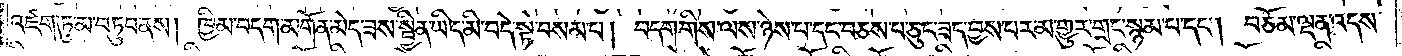འཛག་ཏུ་མ་བཏུབ་ནས། ཁྱིམ་བདག་མགོན་མེད་ཟས་སྦྱིན་ཡིད་མི་བདེ་སྟེ་བསམ་པ། བདག་གིས་ལས་ཉེས་པ་དང་བཅས་པ་ཅུང་ཟད་བྱས་པར་མ་གྱུར་གྲང་སྙམ་པ་དང༌། བཅོམ་ལྡན་འདས་
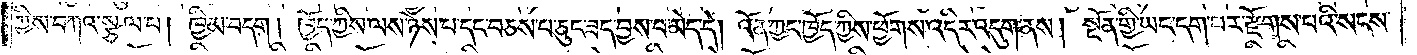ཀྱིས་བཀའ་སྩལ་པ། ཁྱིམ་བདག །ཁྱོད་ཀྱིས་ལས་ཉེས་པ་དང་བཅས་པ་ཅུང་ཟད་བྱས་པ་མེད་དེ། འོན་ཀྱང་ཁྱོད་ཀྱིས་ཕྱོགས་འདིར་འདུག་ནས། སྔོན་གྱི་ཡང་དག་པར་རྫོགས་པའི་སངས་
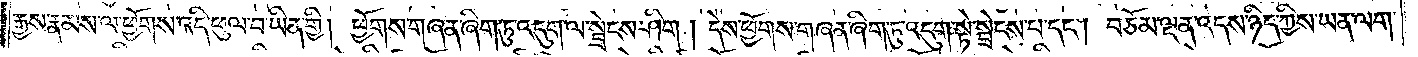རྒྱས་རྣམས་ལ་ཕྱོགས་འདི་ཕུལ་བ་ཡིན་གྱི། ཕྱོགས་གཞན་ཞིག་ཏུ་འདུག་ལ་སྦྲེངས་ཤིག །དེས་ཕྱོགས་གཞན་ཞིག་ཏུ་འདུག་སྟེ་སྦྲེངས་པ་དང༌། བཅོམ་ལྡན་འདས་ཉིད་ཀྱིས་ཡན་ལག་
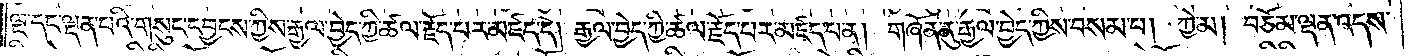ལྔ་དང་ལྡན་པའི་གསུང་དབྱངས་ཀྱིས་རྒྱལ་བྱེད་ཀྱི་ཚལ་རྗོད་པར་མཛད་དེ། རྒྱལ་བྱེད་ཀྱི་ཚལ་རྗོད་པར་མཛད་པ་ན། གཞོན་ནུ་རྒྱལ་བྱེད་ཀྱིས་བསམ་པ། ཀྱེ་མ། བཅོམ་ལྡན་འདས་
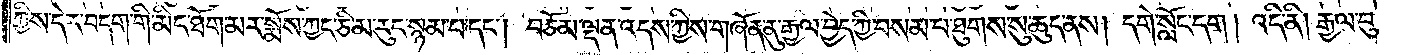ཀྱིས་དེར་བདག་གི་མིང་ཐོག་མར་སྨོས་ཀྱང་ཅི་མ་རུང་སྙམ་པ་དང༌། བཅོམ་ལྡན་འདས་ཀྱིས་གཞོན་ནུ་རྒྱལ་བྱེད་ཀྱི་བསམ་པ་ཐུགས་སུ་ཆུད་ནས། དགེ་སློང་དག །འདི་ནི། རྒྱལ་བུ་
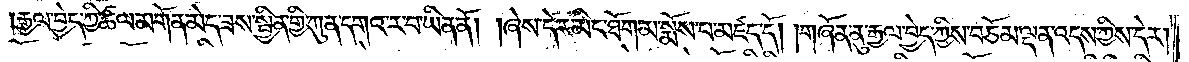རྒྱལ་བྱེད་ཀྱི་ཚལ་མགོན་མེད་ཟས་སྦྱིན་གྱི་ཀུན་དགའ་ར་བ་ཡིན་ནོ། །ཞེས་དེར་མིང་ཐོག་མ་སྨོས་པ་མཛད་དོ། །གཞོན་ནུ་རྒྱལ་བྱེད་ཀྱིས་བཅོམ་ལྡན་འདས་ཀྱིས་དེར།
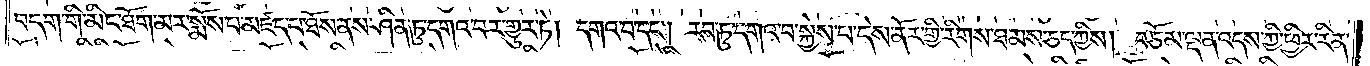བདག་གི་མིང་ཐོག་མར་སྨོས་པ་མཛད་པ་ཐོས་ནས་ཤིན་ཏུ་དགའ་བར་གྱུར་ཏེ། དགའ་བ་དང༌། རབ་ཏུ་དགའ་བ་སྐྱེས་པ་དེས་ནོར་གྱི་རིགས་ཐམས་ཅད་ཀྱིས། བཅོམ་ལྡན་འདས་ཀྱི་ཕྱིར་རིན་
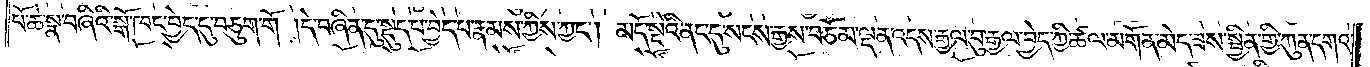པོ་ཆེ་སྣ་བཞིའི་སྒོ་ཁང་བྱེད་དུ་བཅུག་གོ །དེ་བཞིན་དུ་སྡུད་པ་བྱེད་པ་རྣམས་ཀྱིས་ཀྱང༌། མདོ་སྡེའི་ནང་དུ་སངས་རྒྱས་བཅོམ་ལྡན་འདས་རྒྱལ་བུ་རྒྱལ་བྱེད་ཀྱི་ཚལ་མགོན་མེད་ཟས་སྦྱིན་གྱི་ཀུན་དགའ་
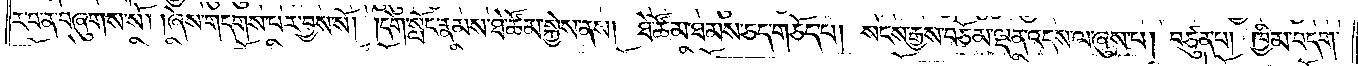ར་བ་ན་བཞུགས་སོ། །ཞེས་གདགས་པར་བྱས་སོ། །དགེ་སློང་རྣམས་ཐེ་ཚོམ་སྐྱེས་ནས། ཐེ་ཚོམ་ཐམས་ཅད་གཅོད་པ། སངས་རྒྱས་བཅོམ་ལྡན་འདས་ལ་ཞུས་པ། བཙུན་པ། ཁྱིམ་བདག་
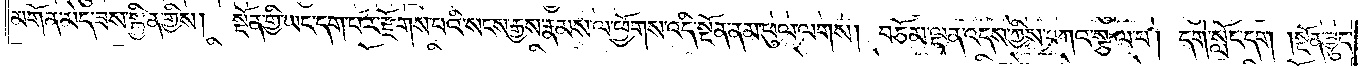མགོན་མེད་ཟས་སྦྱིན་གྱིས། སྔོན་གྱི་ཡང་དག་པར་རྫོགས་པའི་སངས་རྒྱས་རྣམས་ལ་ཕྱོགས་འདི་སྔོན་ནམ་ཕུལ་ལགས། བཅོམ་ལྡན་འདས་ཀྱིས་བཀའ་སྩལ་པ། དགེ་སློང་དག །སྔོན་བྱུང་
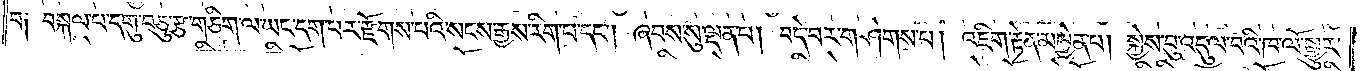བ། བསྐལ་པ་དགུ་བཅུ་རྩ་གཅིག་ལ་ཡང་དག་པར་རྫོགས་པའི་སངས་རྒྱས་རིག་པ་དང༌། ཞབས་སུ་ལྡན་པ། བདེ་བར་གཤེགས་པ། འཇིག་རྟེན་མཁྱེན་པ། སྐྱེས་བུ་འདུལ་བའི་ཁ་ལོ་སྒྱུར་
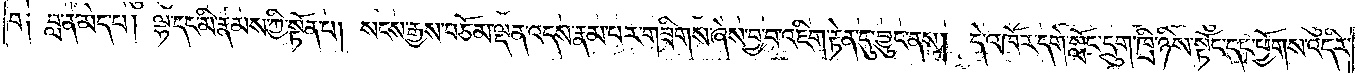བ༑ བླ་ན་མེད་པ། ལྷ་དང་མི་རྣམས་ཀྱི་སྟོན་པ། སངས་རྒྱས་བཅོམ་ལྡན་འདས་རྣམ་པར་གཟིགས་ཞེས་བྱ་བ་འཇིག་རྟེན་དུ་བྱུང་ནས། དེ་འཁོར་དགེ་སློང་དྲུག་ཁྲི་ཉིས་སྟོང་དང་ཕྱོགས་འདིར་
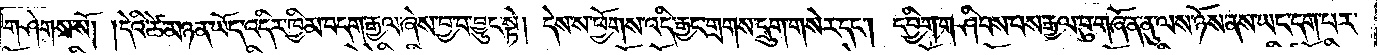གཤེགས་སོ། །དེའི་ཚེ་མཉན་ཡོད་འདིར་ཁྱིམ་བདག་རྒྱལ་ཞེས་བྱ་བ་བྱུང་སྟེ། དེས་ས་ཕྱོགས་འདི་རྒྱང་གྲགས་དྲུག་གསེར་དང༌། དབྱིག་གཤིབས་པས་རྒྱལ་བུ་གཞོན་ནུ་ལས་ཉོས་ནས་ཡང་དག་པར་
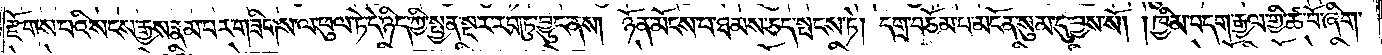རྫོགས་པའི་སངས་རྒྱས་རྣམ་པར་གཟིགས་ལ་ཕུལ་ཏེ་དེ་ཉིད་ཀྱི་སྤྱན་སྔར་རབ་ཏུ་བྱུང་ནས། ཉོན་མོངས་པ་ཐམས་ཅད་སྤངས་ཏེ། དགྲ་བཅོམ་པ་མངོན་སུམ་དུ་བྱས་སོ། །ཁྱིམ་བདག་རྒྱལ་གྱི་ཚ་བོ་ཞིག་
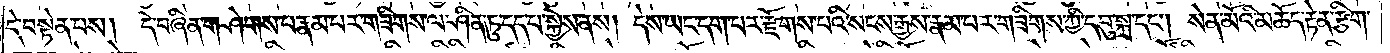དེ་བསྟེན་པས། དེ་བཞིན་གཤེགས་པ་རྣམ་པར་གཟིགས་ལ་ཤིན་ཏུ་དད་པ་སྐྱེས་ནས། དེས་ཡང་དག་པར་རྫོགས་པའི་སངས་རྒྱས་རྣམ་པར་གཟིགས་ཀྱི་དབུ་སྐྲ་དང༌། སེན་མོའི་མཆོད་རྟེན་རྩིག་
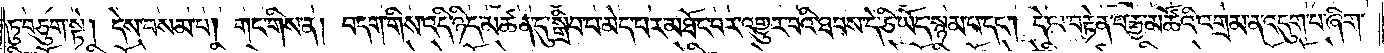ཏུ་བཅུག་སྟེ། དེས་བསམ་པ། གང་གིས་ན། བདག་གིས་འདི་ཉིད་མཚན་དུ་སྒྲིབ་པ་མེད་པར་མཐོང་བར་འགྱུར་བའི་ཐབས་དེ་ཅི་ཡོད་སྙམ་པ་དང༌། དེ་ལ་བརྟེན་པ་རྒྱ་མཚོའི་འགྲམ་ན་འདུག་པ་ཞིག་
